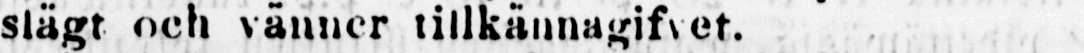slägt och vänner tillkännagifvet.
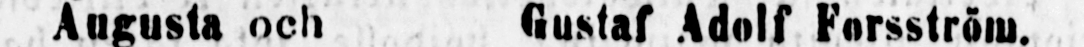Augusta och Gustaf Adolf Forsström.
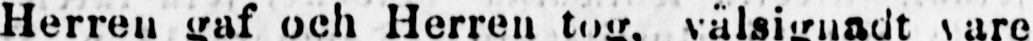Herren gaf och Herren tog, välsignadt vare
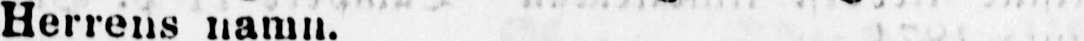Herrens namn.
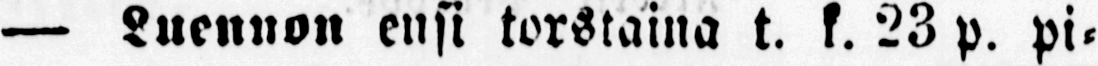— Luennon ensi torstaina t. k. 23 p. pi-
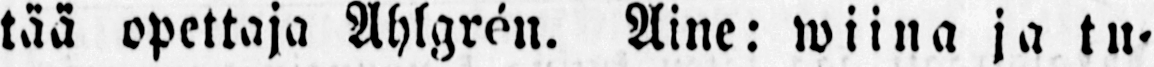tää opettaja Ahlgrén. Aine: wiina ja tu-
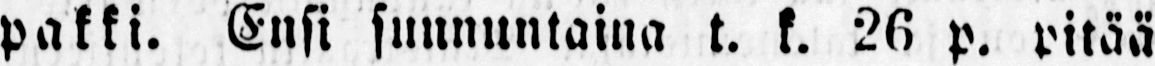pakki. Ensi sunnuntaina t. k. 26 p. pitää
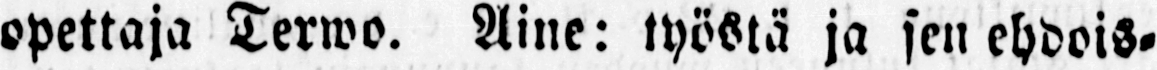opettaja Terwo. Aine: työstä ja sen ehdois-
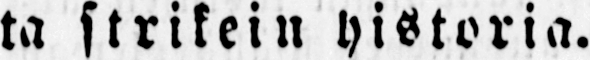ta strikein historia.
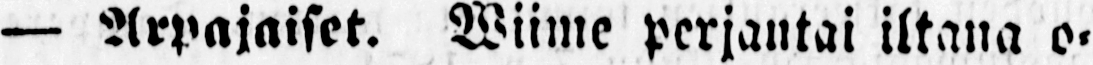— Arpajaiset. wiime perjantai iltana o-
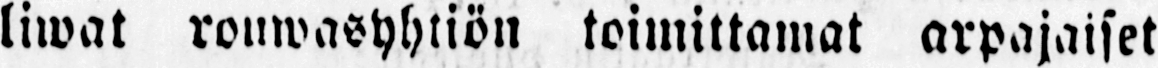liwat rouwasyhtiön toimittamat arpajaiset
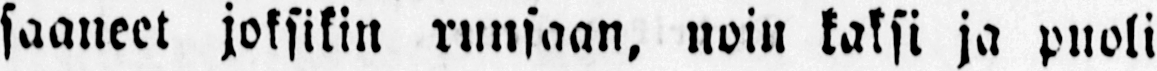saaneet joksikin runsaan, noin kaksi ja puoli
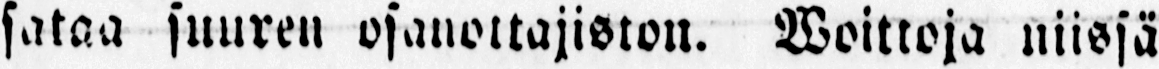sataa suuren osanottajiston. Woittoja niissä
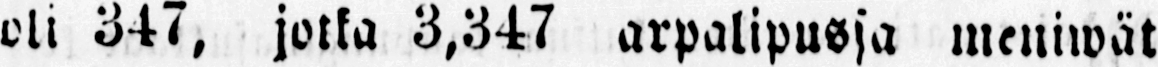oli 347, jotka 3,347 arpalipussa meniwät
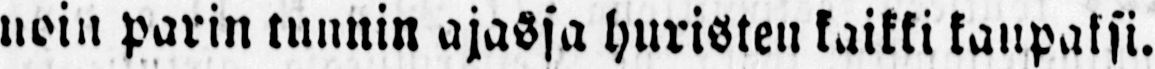noin parin tunnin ajassa huristen kaikki kaupaksi.
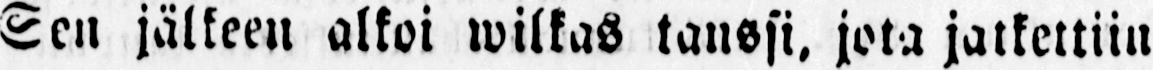Sen jälkeen alkoi wilkas tanssi, jota jatkettiin
